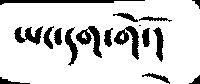ཡང་དག་གོ་།
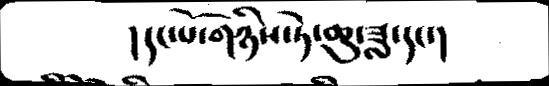།དང་པོ་གཉིས་ཏེ་ཆུ་ཟླ་དང་།
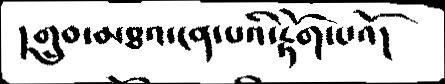།གྲུབ་མཐའ་ངན་པའི་རྟོག་པའོ།
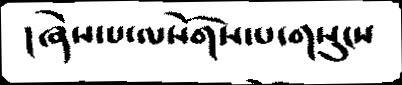།ཞེས་པ་ལསོགས་པ་གསུངས
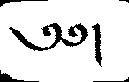༄༅།
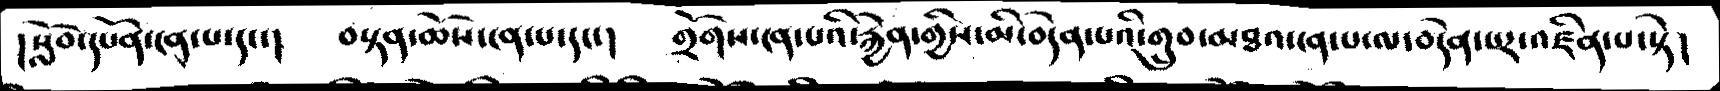།སློབ་དཔོན་ངན་པ་དང་།   བསྟན་ཆོས་ངན་པ་དང་།   གྲོགས་ངན་པའི་རྐྱེན་གྱིས་མི་བདེན་པའི་གྲུབ་མཐའ་ངན་པ་ལ་བདེན་པར་འཛིན་པ་སྟེ།
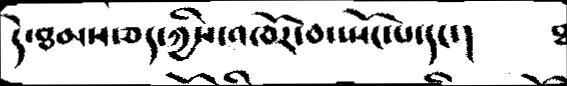དེ་ཐམས་ཅད་ཀྱིས་འཁོར་བ་སྤོང་པ་དང་།  ཐ
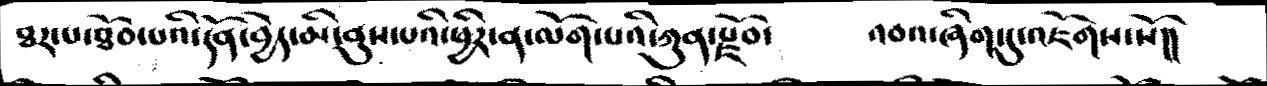ཐར་པ་ཐོབ་པའི་དོན་བྱེད་མི་ནུས་པའི་ཕྱིར་ན་ལོག་པའི་ཀུན་རྫོབ་    འབའ་ཞིག་དུ་འཇོགས་སོ།།
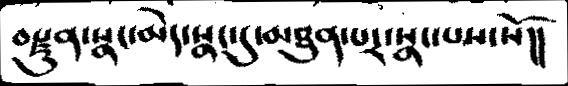བརྫུན་སྣང་མེད་སྣང་དུ་མཐུན་པར་སྣང་པས་སོ།།
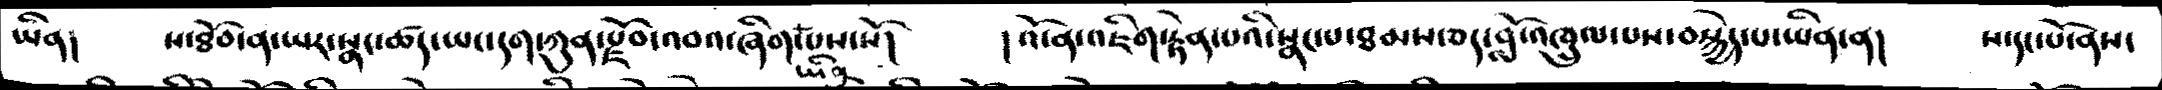ཡིན།   ས་ཐོབ་ན་ཡར་སྣང་ཚད་ཡང་དག་ཀུན་རྫོབ་འབའ་ཞིག་ཡིན་པས་སོ།   །འོ་ན་འཇིག་རྟེན་པའི་སྣང་པ་ཐམས་ཅད་བློ་འཁྲུལ་པས་བསྐྱེད་པ་ཡིན་ན།   ས་དང་པོ་ནས་
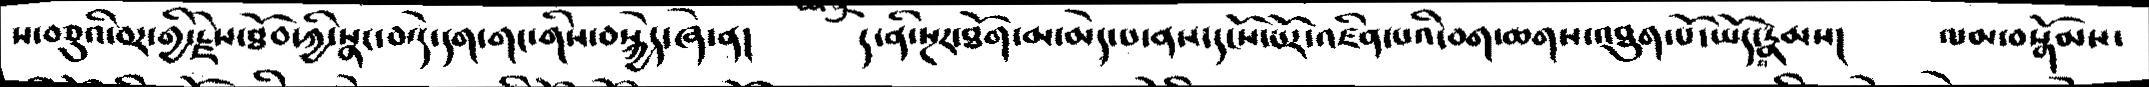ས་བཅུའི་བར་གྱི་རྗེས་ཐོབ་ཀྱི་སྣང་བ་དེ་དག་གང་གིས་བསྐྱེད་ཞེ་ན།   ད་ནི་སྔར་ཐོག་མ་མེད་པ་ནས་དངོས་པོར་འཛིན་པའི་བག་ཆགས་འཐུག་པོ་ཡོད་པ་རྣམས།   ལམ་བསྒོམས་་
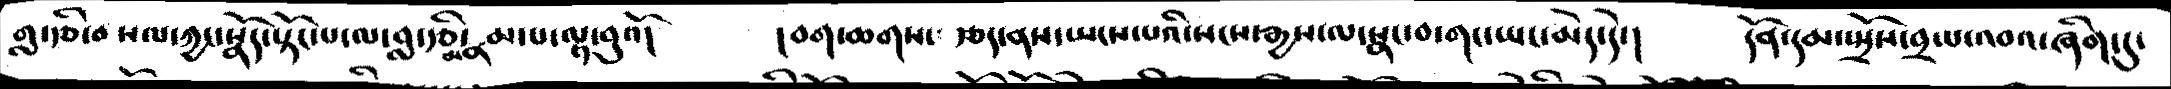གླ་རྩི་བསལ་ཀྱང་སྣོད་སྟོང་པ་ལ་བླ་རྩི་མནམ་པ་ལྟ་བུའོ།   །བག་ཆགས་རྩད་ནས་སྤངས་པའི་སངས་རྒྱས་ལ་སྣང་བ་གང་ཡང་མེད་དེ་།   དོན་དམ་སྤྲོས་བྲལ་འབའ་ཞིག་དུ་
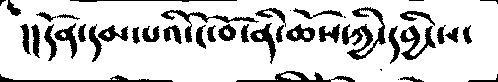།།དོན་དམ་པའི་ངོ་བ་ོནི་ཆོས་ཀྱི་དབྱིངས་
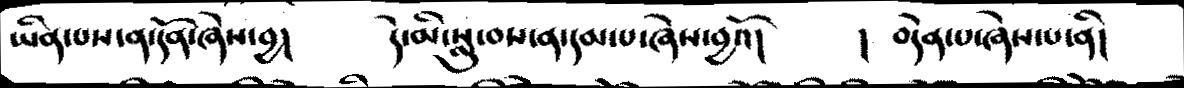ཡིན་པས་ན་དོན་ཞེས་བྱ།   དེ་མི་སླུ་བས་ན་དམ་པ་ཞེས་བྱའོ།    ། བདེན་པ་ཞེས་པ་ནི།
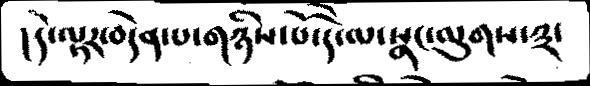།དེ་ལྟར་བདེན་པ་གཉིས་པོ་དེ་ལ་སྣང་ལུགས་༣་
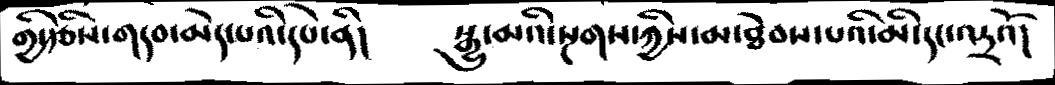གྱི་རྩིས་གདབ་མེད་པའི་དཔེ་ནི།   སྒྱུ་མའི་སྔགས་ཀྱིས་མ་ཐེབས་པའི་མི་དང་འདྲའོ།
